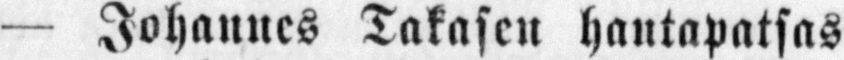— Johannes Takasen hautapatsas
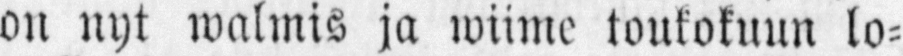on nyt walmis ja wiime toukokuun lo-
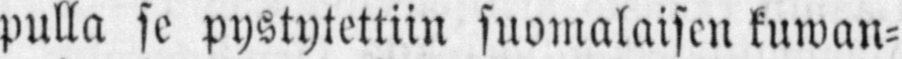pulla se pystytettiin suomalaisten kuwan-
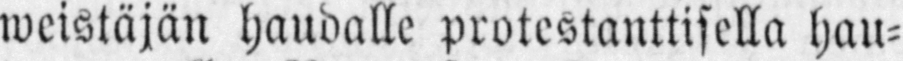weistäjän haudalle protestanttisella hau-
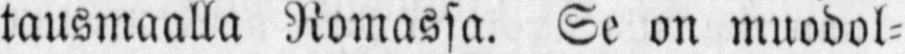tausmaalla Romassa. Se on muodol-
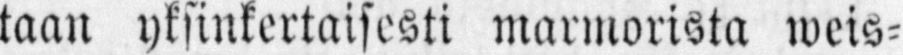taan yksinkertaisesti marmorista weis-
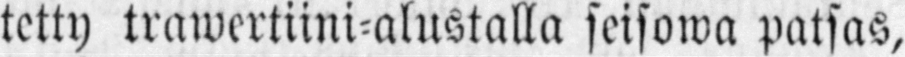tetty trawertiini-alustalla seisowa patsas,
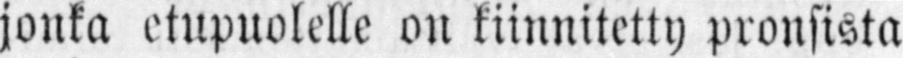jonka etupuolelle on kiinnitetty pronsista
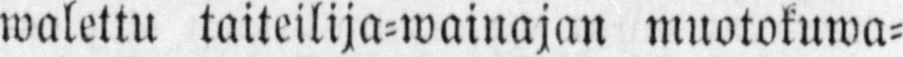walettu taiteilija-wainajan muotokuwa-
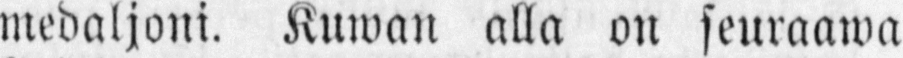medaljoni. Kuwan alla on seuraawa
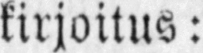kirjoitus:
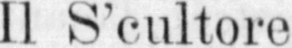II S'cultore
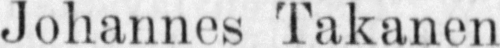Johannes Takanen
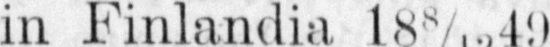Nato in Finlandia 18 8/12 49.
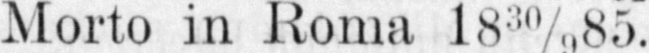Morto in Roma 18 30/9 85.
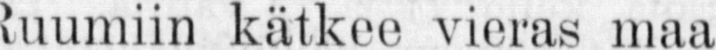Ruumiin kätkee vieras maa
